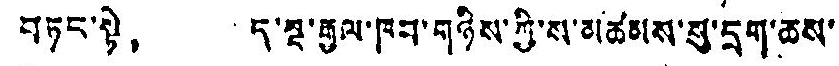བཏང་སྟེ， ད་སྔ་རྒྱལ་ཁབ་གཉིས་ཀྱི་ས་མཚམས་སུ་དྲག་ཆས་
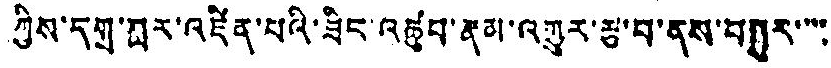ཀྱིས་དགྲ་ཐར་འཛིན་པའི་ཟིང་འཚུབ་རྣམ་འགྱུར་རྩ་བ་ནས་བསྐུར་་་་
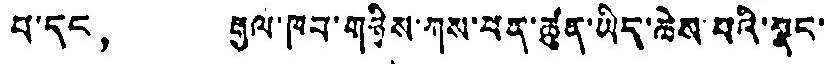པ་དང， རྒྱལ་ཁབ་གཉིས་ཀས་ཕན་ཚུན་ཡིད་ཆེས་པའི་སྣང་
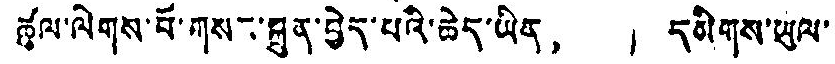ཚུལ་ལེགས་པོ་གསར་སྐྲུན་བྱེད་པའི་ཆེད་ཡིན， དམིགས་ཡུལ་
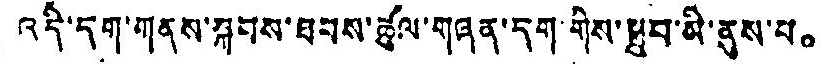འདི་དག་གནས་སྐབས་ཐབས་ཚུལ་གཞན་དག་གིས་ཐུབ་མི་ནུས་པ。
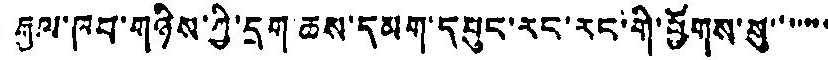རྒྱལ་ཁབ་གཉིས་ཀྱི་དྲག ཆས་དམག་དཔུང་རང་རང་གི་ཕྱོགས་སུ་་་་་་་
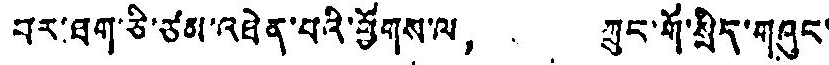བར་ཐག་ཅི་ཙམ་འཐེན་པའི་ཕྱོགས་ལ， ཀྲུང་གོ་སྲིད་གཞུང་
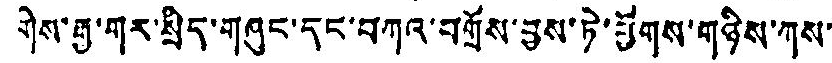གེས་རྒྱ་གར་སྲིད་གཞུང་དང་བཀའ་བགྲོས་བྱས་ཏེ་ཕྱོགས་གཉིས་ཀས་
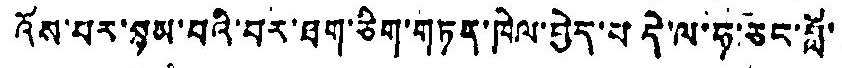འོས་པར་སྙམ་པའི་བར་ཐག་ཅིག་གཏན་ཁེལ་བྱེད་པ དེ་ལ་ཧ་ཅང་བློ་
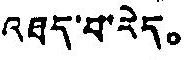འཐད་པ་རེད。
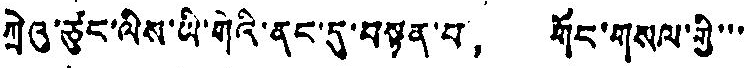ཀྲེའུ་ཙུང་ལིས་ཡི་གེའི་ནང་དུ་བསྟན་པ， གོང་གསལ་གྱི་་་
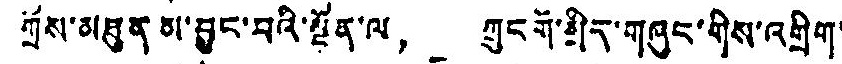ཀྲོས་མཐུན མ་བྱུང་བའི་སྔོན་ལ， ཀྲུང་གོ་སྲིད་གཞུང་གིས་འགྲིག་
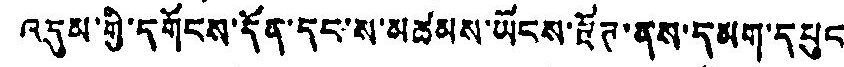འདུམ་གྱི་དགོངས་དོན་དང་ས་མཚམས་ཡོངས་རྫོཊ་ནས་དམག་དཔུང
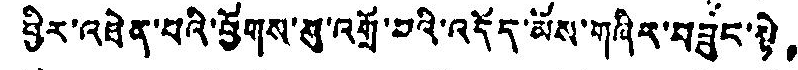ཕྱིར་འཐེན་པའི་ཕྱོགས་སུ་འགྲོ་བའི་འདོད་མོས་གཞིར་བཟུང་སྟེ，
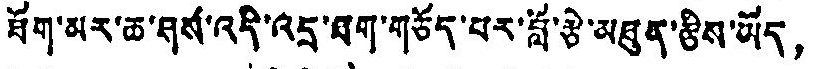ཐོག་མར་ཆ་ཤས་འདི་འདྲ་ཐག་གཅོད་པར་བློ་རྩེ་མཐུན་རྩིས་ཡོད，
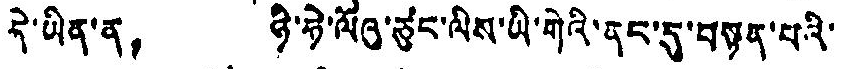དེ་ཡིན་ན， ཉི་ཧེ་ལོའུ་ཙུང་ལིས་ཡི་གེའི་ནང་དུ་བསྟན་པའི་
